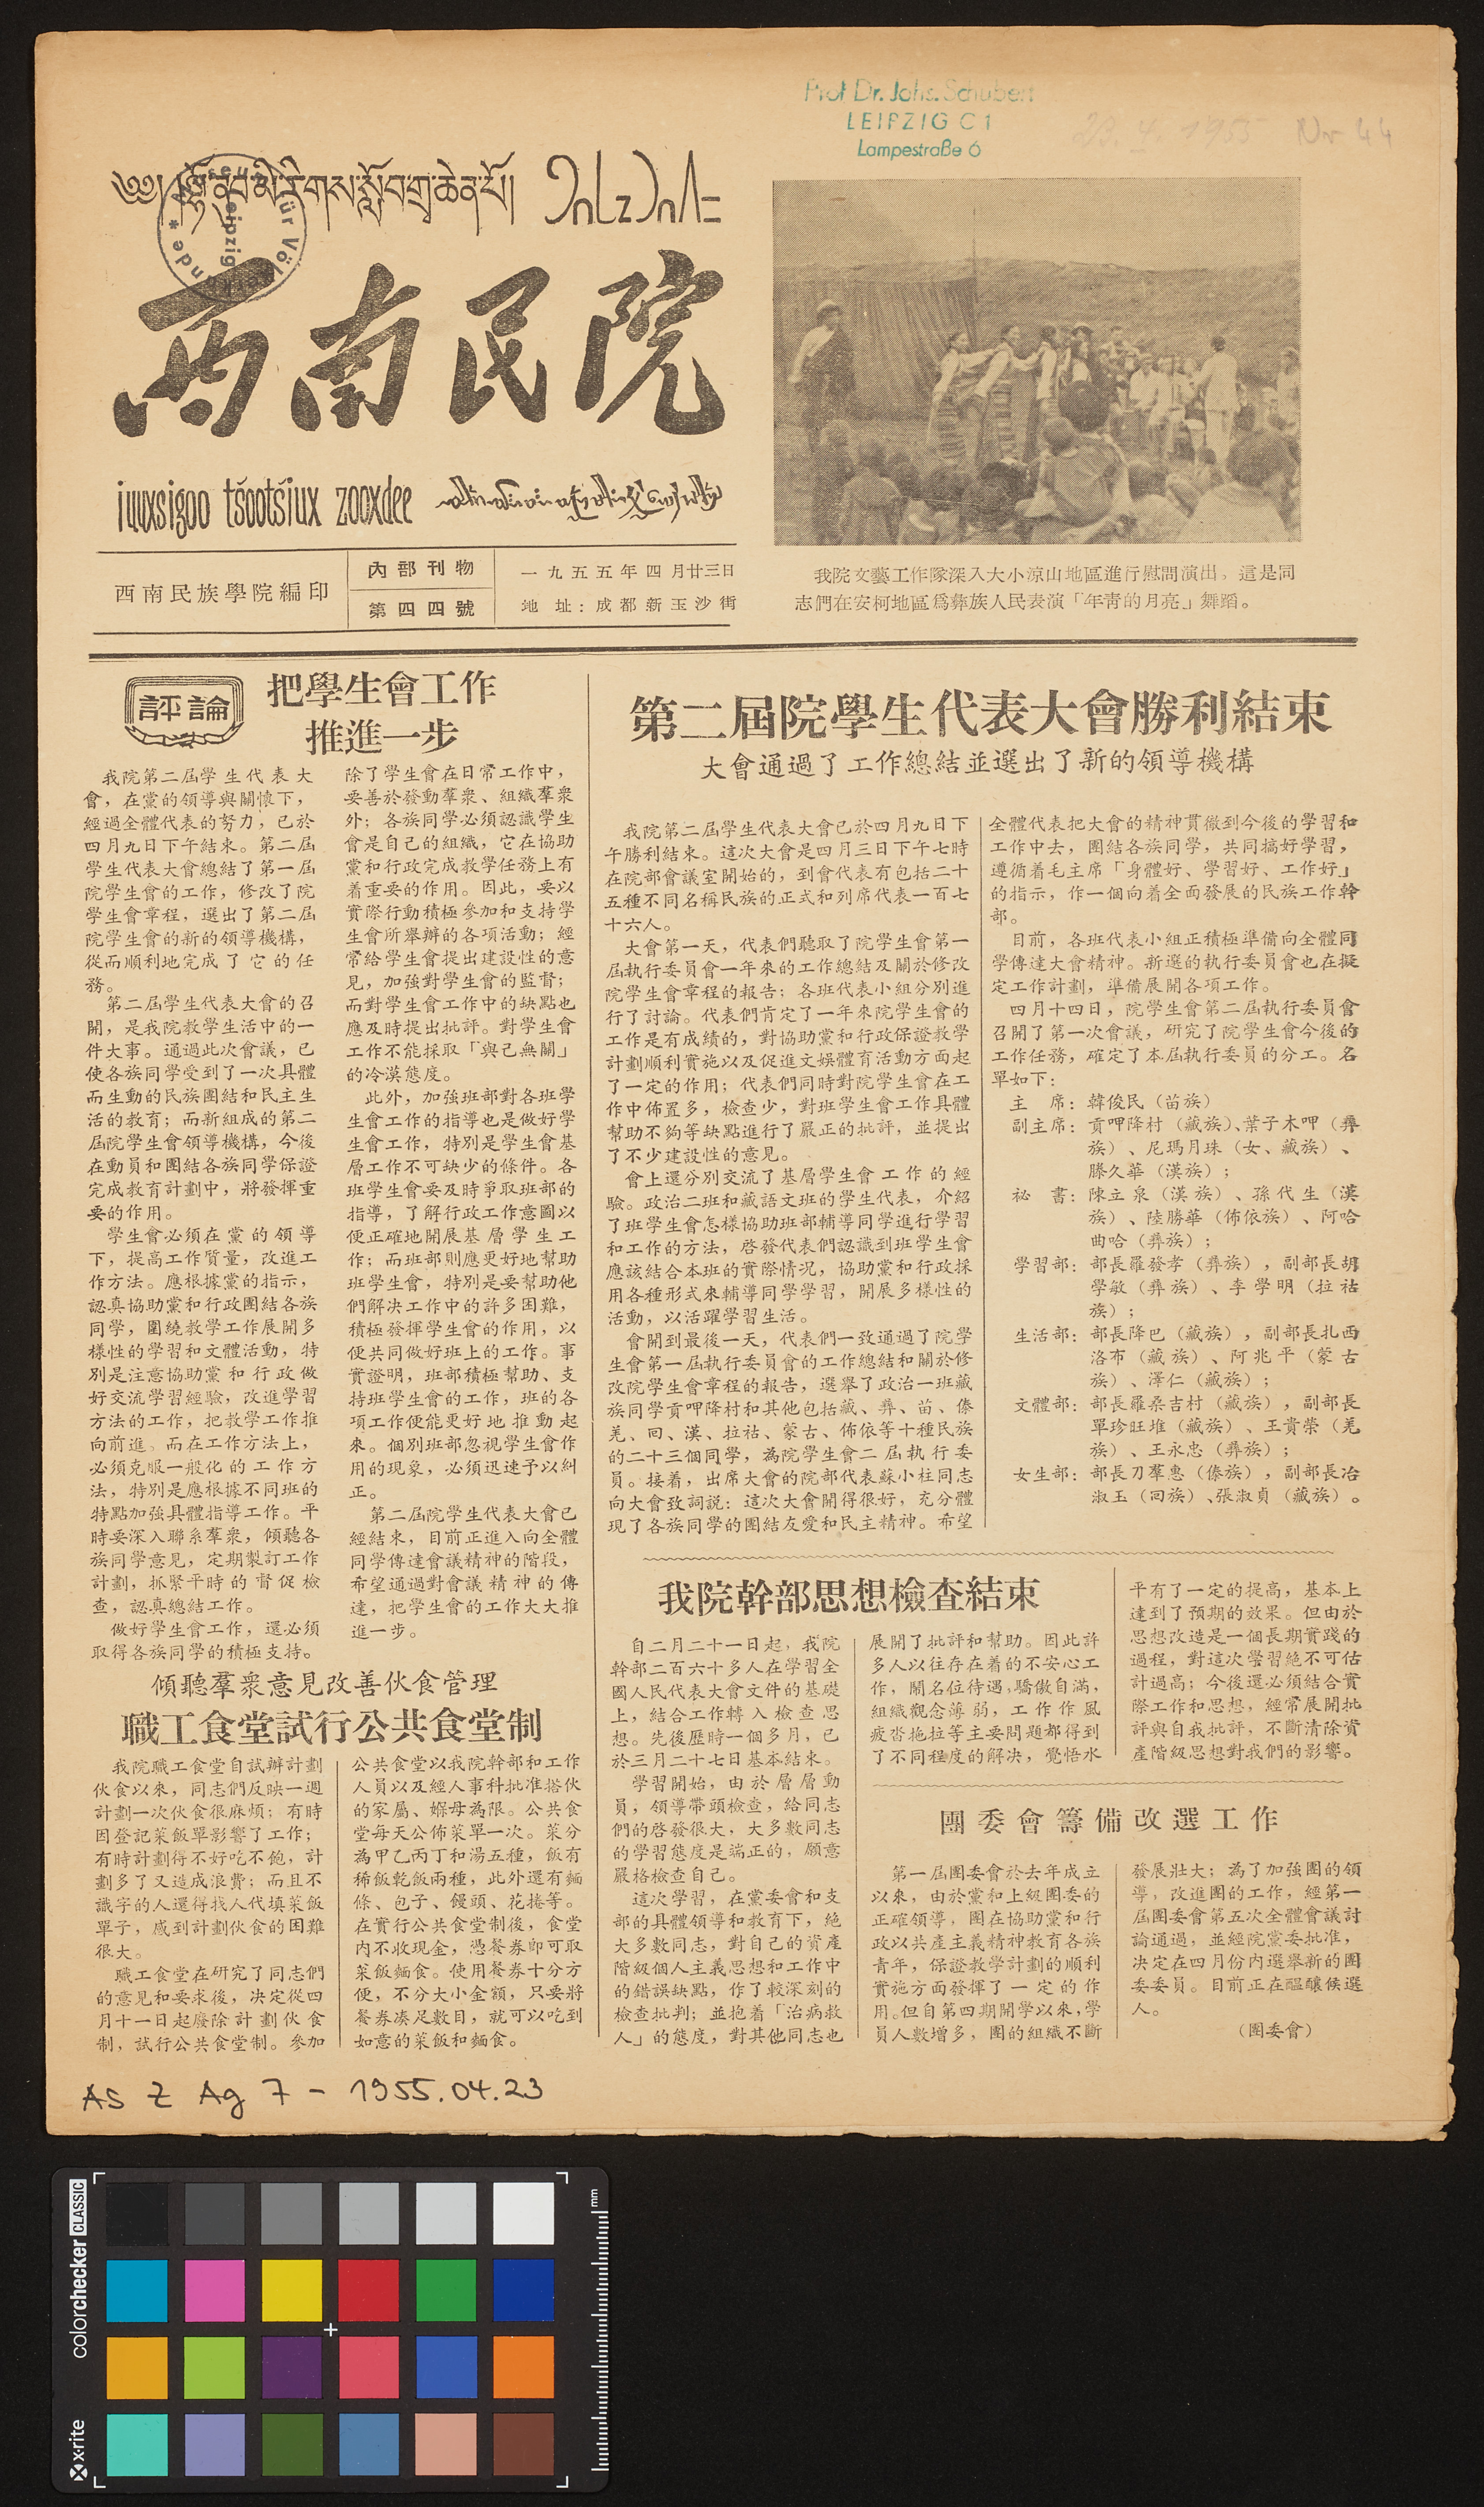༄༅། །ལྷོ་ནུབ་མི་རིགས་སློབ་གྲྭ་ཆེན་པོ།
西南民院
iuuxsigoo ts'oots'iux zooxdee
西南民族學院編印
內部刊物
第四四號
一九五五年四月廿三日
地址：成都新玉沙街
我院文藝工作隊深入大小涼山地區進行慰問演出，這是同
志們在安柯地區為彝族人民表演「年靑的月亮」舞蹈。
評論
把學生會工作
推進一步
我院第二屆學生代表大
會，在黨的領導與關懷下，
經過全體代表的努力，已於
四月九日下午結束。第二屆
學生代表大會總結了第一屆
院學生會的工作，修改了院
學生會章程，選出了第二屆
院學生會的新的領導機構，
從而順利地完成了它的任
務。
第二屆學生代表大會的召
開，是我院教學生活中的一
件大事。通過此次會議，已
使各族同學受到了一次具體
而生動地民族團結和民主生
活的教育；而新組成的第二
屆院學生會領導機構，今後
在動員和團結各族同學保證
完成敎育計劃中，將發揮重
要的作用。
學生會必須在黨的領導
下，提高工作質量，改進工
作方法。應根據黨的指示，
認真協助黨和行政團結各族
同學，圍繞教學工作展開多
樣性的學習和文體活動，特
別是注意協助黨和行政做
好交流學習經驗，改進學習
方法的工作，把教學工作推
向前進。而在工作方法上，
必須克服一般化的工作方
法，特別是應根據不同班的
特點加強具體指導工作。平
時要深入聯系羣衆，傾聽各
族同學意見，定期製定工作
計劃，抓緊平時的督促檢
查，認真總結工作。
做好學生會工作，還必須
取得各族同學的積極支持。
除了學生會在日常工作中，
要善於發動羣衆、組織羣衆
外；各族同學必須認識學生
會是自己的組織，它在協助
黨和行政完成教學任務上有
着重要的作用。因此，要以
實際行動積極參加和支持學
生會所舉辦的各項活動；經
常給學生會提出建設性的意
見，加強對學生會的監督；
而對學生會工作中的缺點也
應及時提出批評。對學生會
工作不能採取「與己無關」
的冷漠態度。
此外，加強班部對各班學
生會工作的指導也是做好學
生會工作，特別是學生會基
層工作不可缺少的條件。各
班學生會要及時爭取班部的
指導，了解行政工作意圖以
便正確地開展及曾學生工
作；而班部則應更好地幫助
班學生會，特別是要幫助他
們解決工作中的許多困難，
積極發揮學生會的作用，以
便共同做好班上的工作。事
實證明，班部積極幫助、支
持班學生會的工作，班的各
項工作便能更好地推動起
來。個別班部忽視學生會作
用的現象，必須迅速予以糾
正。
第二屆院學生代表大會已
經結束，目前正進入向全體
同學傳達會議精神的階段，
希望通過對會議精神的傳
達，把學生會的工作大大推
進一步。
傾聽羣衆意見改善伙食管理
職工食堂試行公共食堂制
我院職工食堂自試辦計劃
伙食以來，同志們反映一週
計劃一次伙食很麻煩；有時
因登記菜飯單影響了工作；
有時計劃得不好吃不飽，計
劃多了又造成浪費；而且不
識字的人還得找人代填菜飯
單子，感到計劃伙食的困難
很大。
職工食堂在研究了同志們
意見和要求後，決定從四
月十一日起廢除計劃伙食
制，試行公共食堂制。參加
公共食堂以我院幹部和工作
人員以及經人事科批准搭伙
的家屬、媬姆為限。公共食
堂每天公佈菜單一次。菜分
為甲乙丙丁和湯五種，飯有
稀飯乾飯兩種，此外還有麵
條、包子、饅頭、花捲等。
在實行公共食堂制後，食堂
內不收現金，憑餐券卽可取
菜飯麵食。使用餐券十分方
便，不分大小金額，只要將
餐券湊足數目，就可以吃到
如意的菜飯和麵食。
第二屆院學生代表大會勝利結束
大會通過了工作總結並選出了新的領導機構
我院第二屆學生代表大會已於四月九日下
午勝利結束。這次大會是四月三日下午七時
在院部會議室開始的，到會代表有包括二十
五種不同名稱民族的正式和列席代表一百七
十六人。
大會第一天，代表們聽取了院學生會第一
屆執行委員會一年來的工作總結及關於修改
院學生會章程的報告：各班代表小組分別進
行了討論。代表們肯定了一年來院學生會的
工作是有成績的，對協助黨和行政保證教學
計劃順利實施以及促進文娛體育活動方面起
了一定的作用；代表們同時對院學生會在工
作中佈置多，檢查少，對班學生會工作具體
幫助不夠等缺點進行了嚴正的批評，並提出
了不少建設性的意見。
會上還分別交流了基層學生會工作的經
驗。政治二班和藏語文班的學生代表，介紹
了班學生會怎樣協助班部輔導同學進行學習
和工作的方法，啓發代表們認識到班學生會
應該結合本班的實際情況，協助黨和行政採
用各種形式來輔導同學學習，開展多樣性的
活動，以活躍學習生活。
會開到最後一天，代表們一直通過了院學
生會第一屆執行委員會的工作總結和關於修
改院學生會章程的報告，選舉了政治一班藏
族同學貢呷降村和其他包括藏、彝、苗、傣
羌、囘、漢、拉祜、蒙古、佈依等十種民族
的二十三個同學，為院學生會二屆執行委
員。接着，出席大會的院部代表蘇小柱同志
向大會致詞說：這次大會開得很好，充分體
現了各族同學的團結友愛和民主精神。希望
全體代表把大會的精神貫徹到今後的學習和
工作中去，團結各族同學，共同搞好學習，
遵循着毛主席「身體好、學習好、工作好」
的指示，作一個向着全面發展的民族工作幹
部。
目前，各班代表小組正積極準備向全體同
學傳達大會精神。新選的執行委員會也在擬
定工作計劃，準備展開各項工作。
四月十四日，院學生會第二屆執行委員會
召開了第一次會議，研究了院學生會今後的
工作任務，確定了本屆執行委員的分工。名
單如下：
主 席：韓俊民（苗族）
副主席：貢呷降村（藏族）、葉子木呷（彝
族）、尼瑪月珠（女、藏族）、
滕久華（漢族）；
祕 書：陳立泉（漢族）、孫代生（漢
族）、陸勝華（布依族）、阿哈
曲哈（彝族）；
學習部：部長羅發孝（彝族），副部長胡
學敏（彝族）、李學明（拉祜
族）；
生活部：部長降巴（藏族），副部長扎西
洛布（藏族）、阿兆平（蒙古
族）、澤仁（藏族）；
文體部：部長羅桑吉村（藏族），副部長
單珍旺堆（藏族）、王貴榮（羌
族）、王永忠（彝族）；
女生部：部長刀羣惠（傣族），副部長冶
淑玉（囘族）、張淑貞（藏族）。
我院幹部思想檢查結束
自二月二十一日起，我院
幹部二百六十多人在學習全
國人民代表大會文件的基礎
上，結合工作轉入檢查思
想。先後歷時一個多月，已
於三月二十七日基本結束。
學習開始，由於層層動
員，領導帶頭檢查，給同志
們的啓發很大，大多數同志
的學習態度是端正的，願意
嚴格檢查自己。
這次學習，在黨委會和支
部的具體領導和教育下，絕
大多數同志，對自己的資產
階級個人主義思想和工作中
的錯誤缺點，作了較深刻的
檢查批判；並抱着「治病救
人」的態度，對其他同志也
展開了批評和幫助。因此許
多人以往存在着的不安心工
作，鬧名位待遇，驕傲自滿，
組織觀念薄弱，工作作風
疲沓拖拉等主要問題都得到
了不同程度的解決，覺悟水
平有了一定的提高，基本上
達到了預期的效果。但由於
思想改造是一個長期實踐的
過程，對這次學習絕不可估
計過高；今後還必須結合實
際工作和思想，經常展開批
評與自我批評，不斷清楚資
產階級思想對我們的影響。
團 委 會 籌 備 改 選 工 作
第一屆團委會於去年成立
以來，由於黨和上級團委的
正確領導，團在協助黨和行
政以共產主義精神教育各族
青年，保證教學計劃的順利
實施方面發揮了一定的作
用。但自第四期開學以來，學
員人數增多，團的組織不斷
發展壯大；為了加強團的領
導，改進團的工作，經第一
屆團委會第五次全體會議討
論通過，並經院黨委批准，
決定在四月份內選舉新的團
委委員。目前正在醞釀候選
人。
（團委會）
